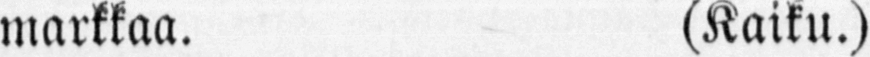markkaa. (Kaiku.)
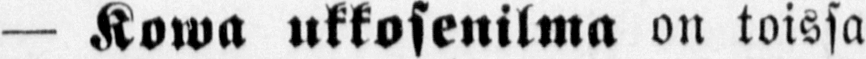— Kowa ukkosenilma on toissa
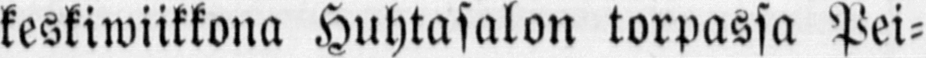keskiwiikkona Huhtasalon torpassa Pei-
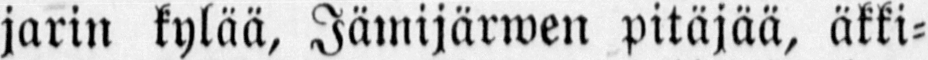jarin kylää, Jämijärwen pitäjää, äkki-
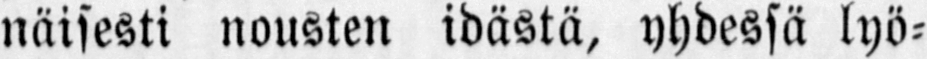näisesti nousten idästä, yhdessä lyö-
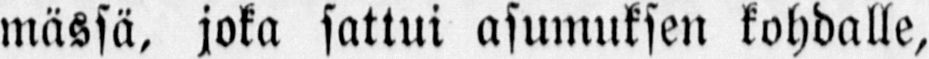mässä, joka sattui asumuksen kohdalle,
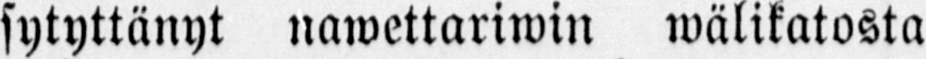sytyttänyt nawettariwin wälikatosta
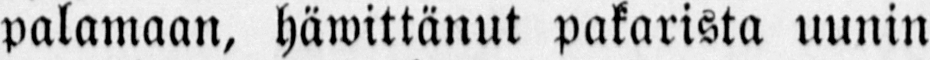palamaan, häwittänut pakarista uunin
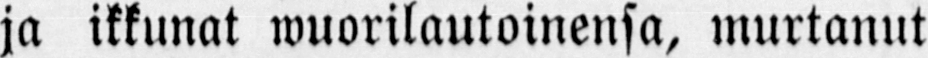ja ikkunat wuorilautoinensa, murtanut
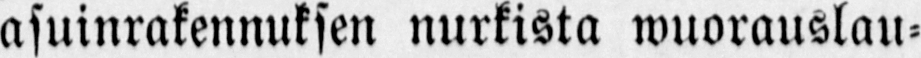asuinrakennuksen nurkista wuorauslau-
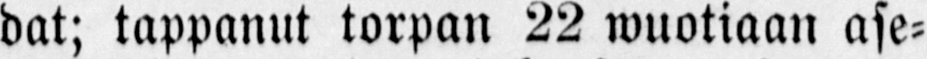dat; tappanut torpan 22 wuotiaan ase-
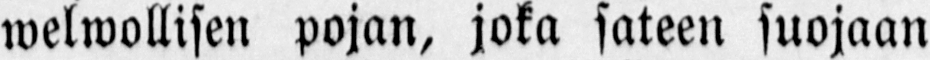welwollisen pojan, joka sateen suojaan
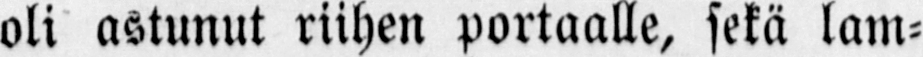oli astunut riihen portaalle, sekä lam-
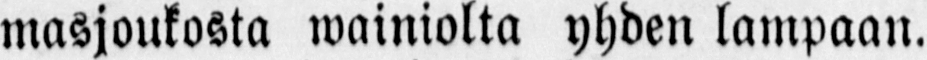masjoukosta wainiolta yhden lampaan.
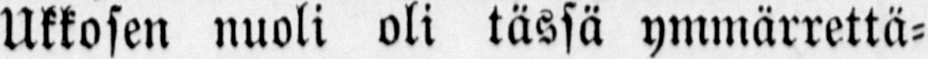Ukkosen nuoli oli tässä ymmärrettä-
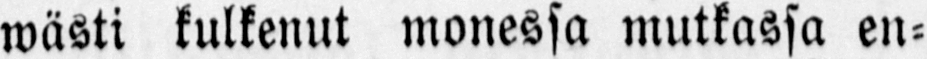wästi kulkenut monessa mutkassa en-
